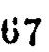67
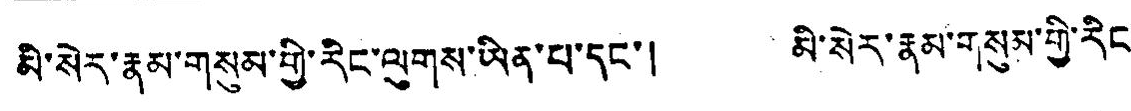མི་སེར་རྣམ་གསུམ་གྱི་རིང་ལུགས་ཡིན་པ་དང་། མི་སེར་རྣམ་གསུམ་གྱི་རིང་
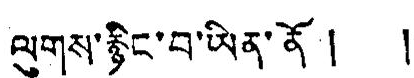ལུགས་རྙིང་བ་ཡིན་ནོ ། །
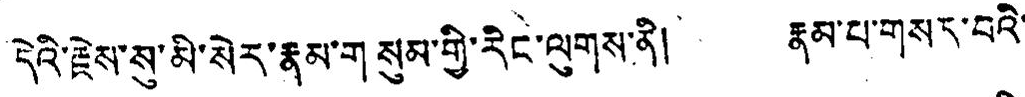དེའི་རྗེས་སུ་མི་སེར་རྣམ་གསུམ་གྱི་རིང་ལུགས་ནི། རྣམ་པ་གསར་བའི་
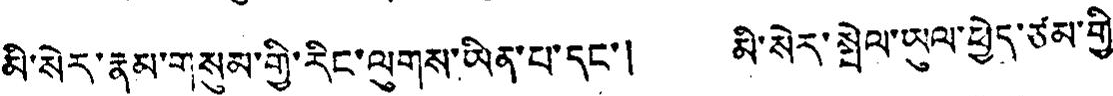མི་སེར་རྣམ་གསུམ་གྱི་རིང་ལུགས་ཡིན་པ་དང་། མི་སེར་སྤེལ་ཡུལ་ཕྱེད་ཙམ་གྱི་
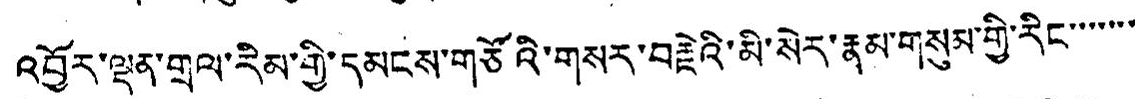འབྱོར་ལྡན་གྲལ་རིམ་གྱི་དམངས་གཙོའི་གསར་བརྗེའི་མི་སེར་རྣམ་གསུམ་གྱི་རིང་་་་་་་
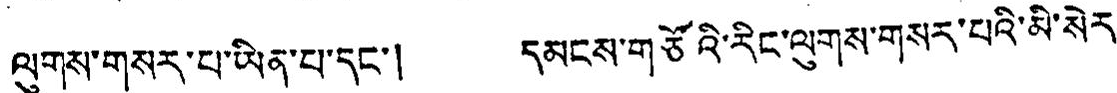ལུགས་གསར་པ་ཡིན་པ་དང་། དམངས་གཙོའི་རིང་ལུགས་གསར་པའི་མི་སེར་
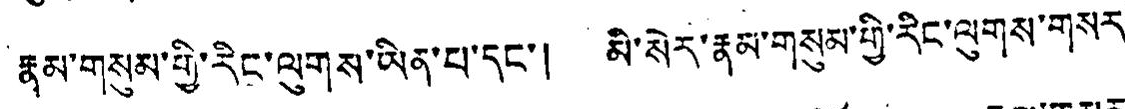རྣམ་གསུམ་གྱི་རིང་ལུགས་ཡིན་པ་དང་། མི་སེར་རྣམ་གསུམ་གྱི་རིང་ལུགས་གསར་
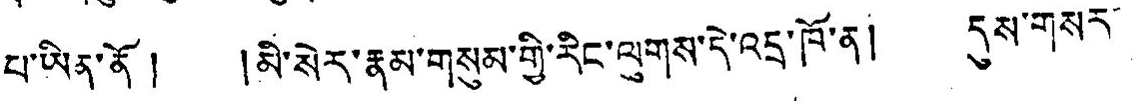པ་ཡིན་ནོ ། །མི་སེར་རྣམ་གསུམ་གྱི་རིང་ལུགས་དེ་འདྲ་ཁོ་ན། དུས་གསར་
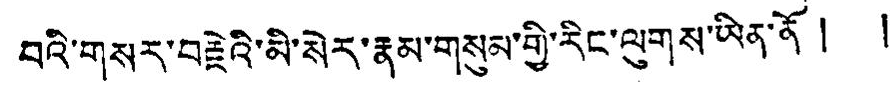བའི་གསར་བརྗེའི་མི་སེར་རྣམ་གསུམ་གྱི་རིང་ལུགས་ཡིན་ནོ ། །
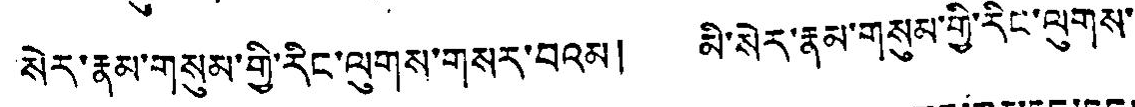སེར་རྣམ་གསུམ་གྱི་རིང་ལུགས་གསར་བའམ། མི་སེར་རྣམ་གསུལ་གྱི་རིང་ལུགས་
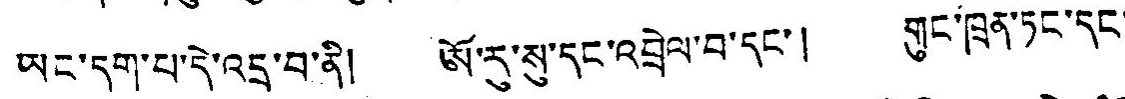ཡང་དག་པ་དེ་འདྲ་བ་ནི། ཨོ་རུ་སུ་དང་འབྲེལ་བ་དང་། གུང་ཁྲན་ཏང་དང་
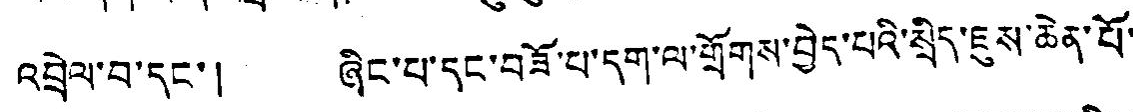འབྲེལ་བ་དང་། ཞིང་པ་དང་བཟོ་པ་དག་ལ་གྲོགས་བྱེད་པའི་སྲིད་ཇུས་ཆེན་པོ་
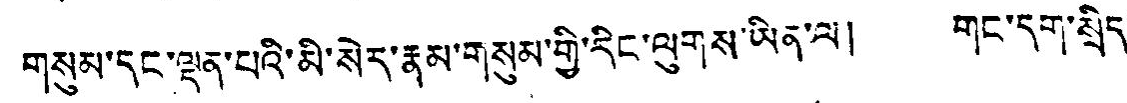གསུམ་དང་ལྡན་པའི་མི་སེར་རྣམ་གསུམ་གྱི་རིང་ལུགས་ཡིན་ལ། གང་དག་སྲིད་
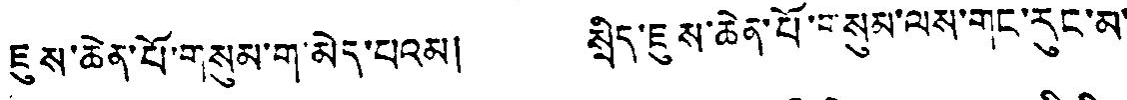ཇུས་ཆེན་པོ་གསུམ་ག་མེད་པའམ། སྲིད་ཇུས་ཆེན་པོ་གསུམ་ལས་གང་རུང་མ་
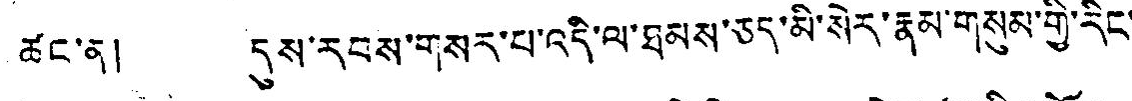ཚང་ནི། དུས་རབས་གསར་པ་འདི་ལ་ཐམས་ཅད་མི་སེར་རྣམ་གསུམ་གྱི་རིང་
